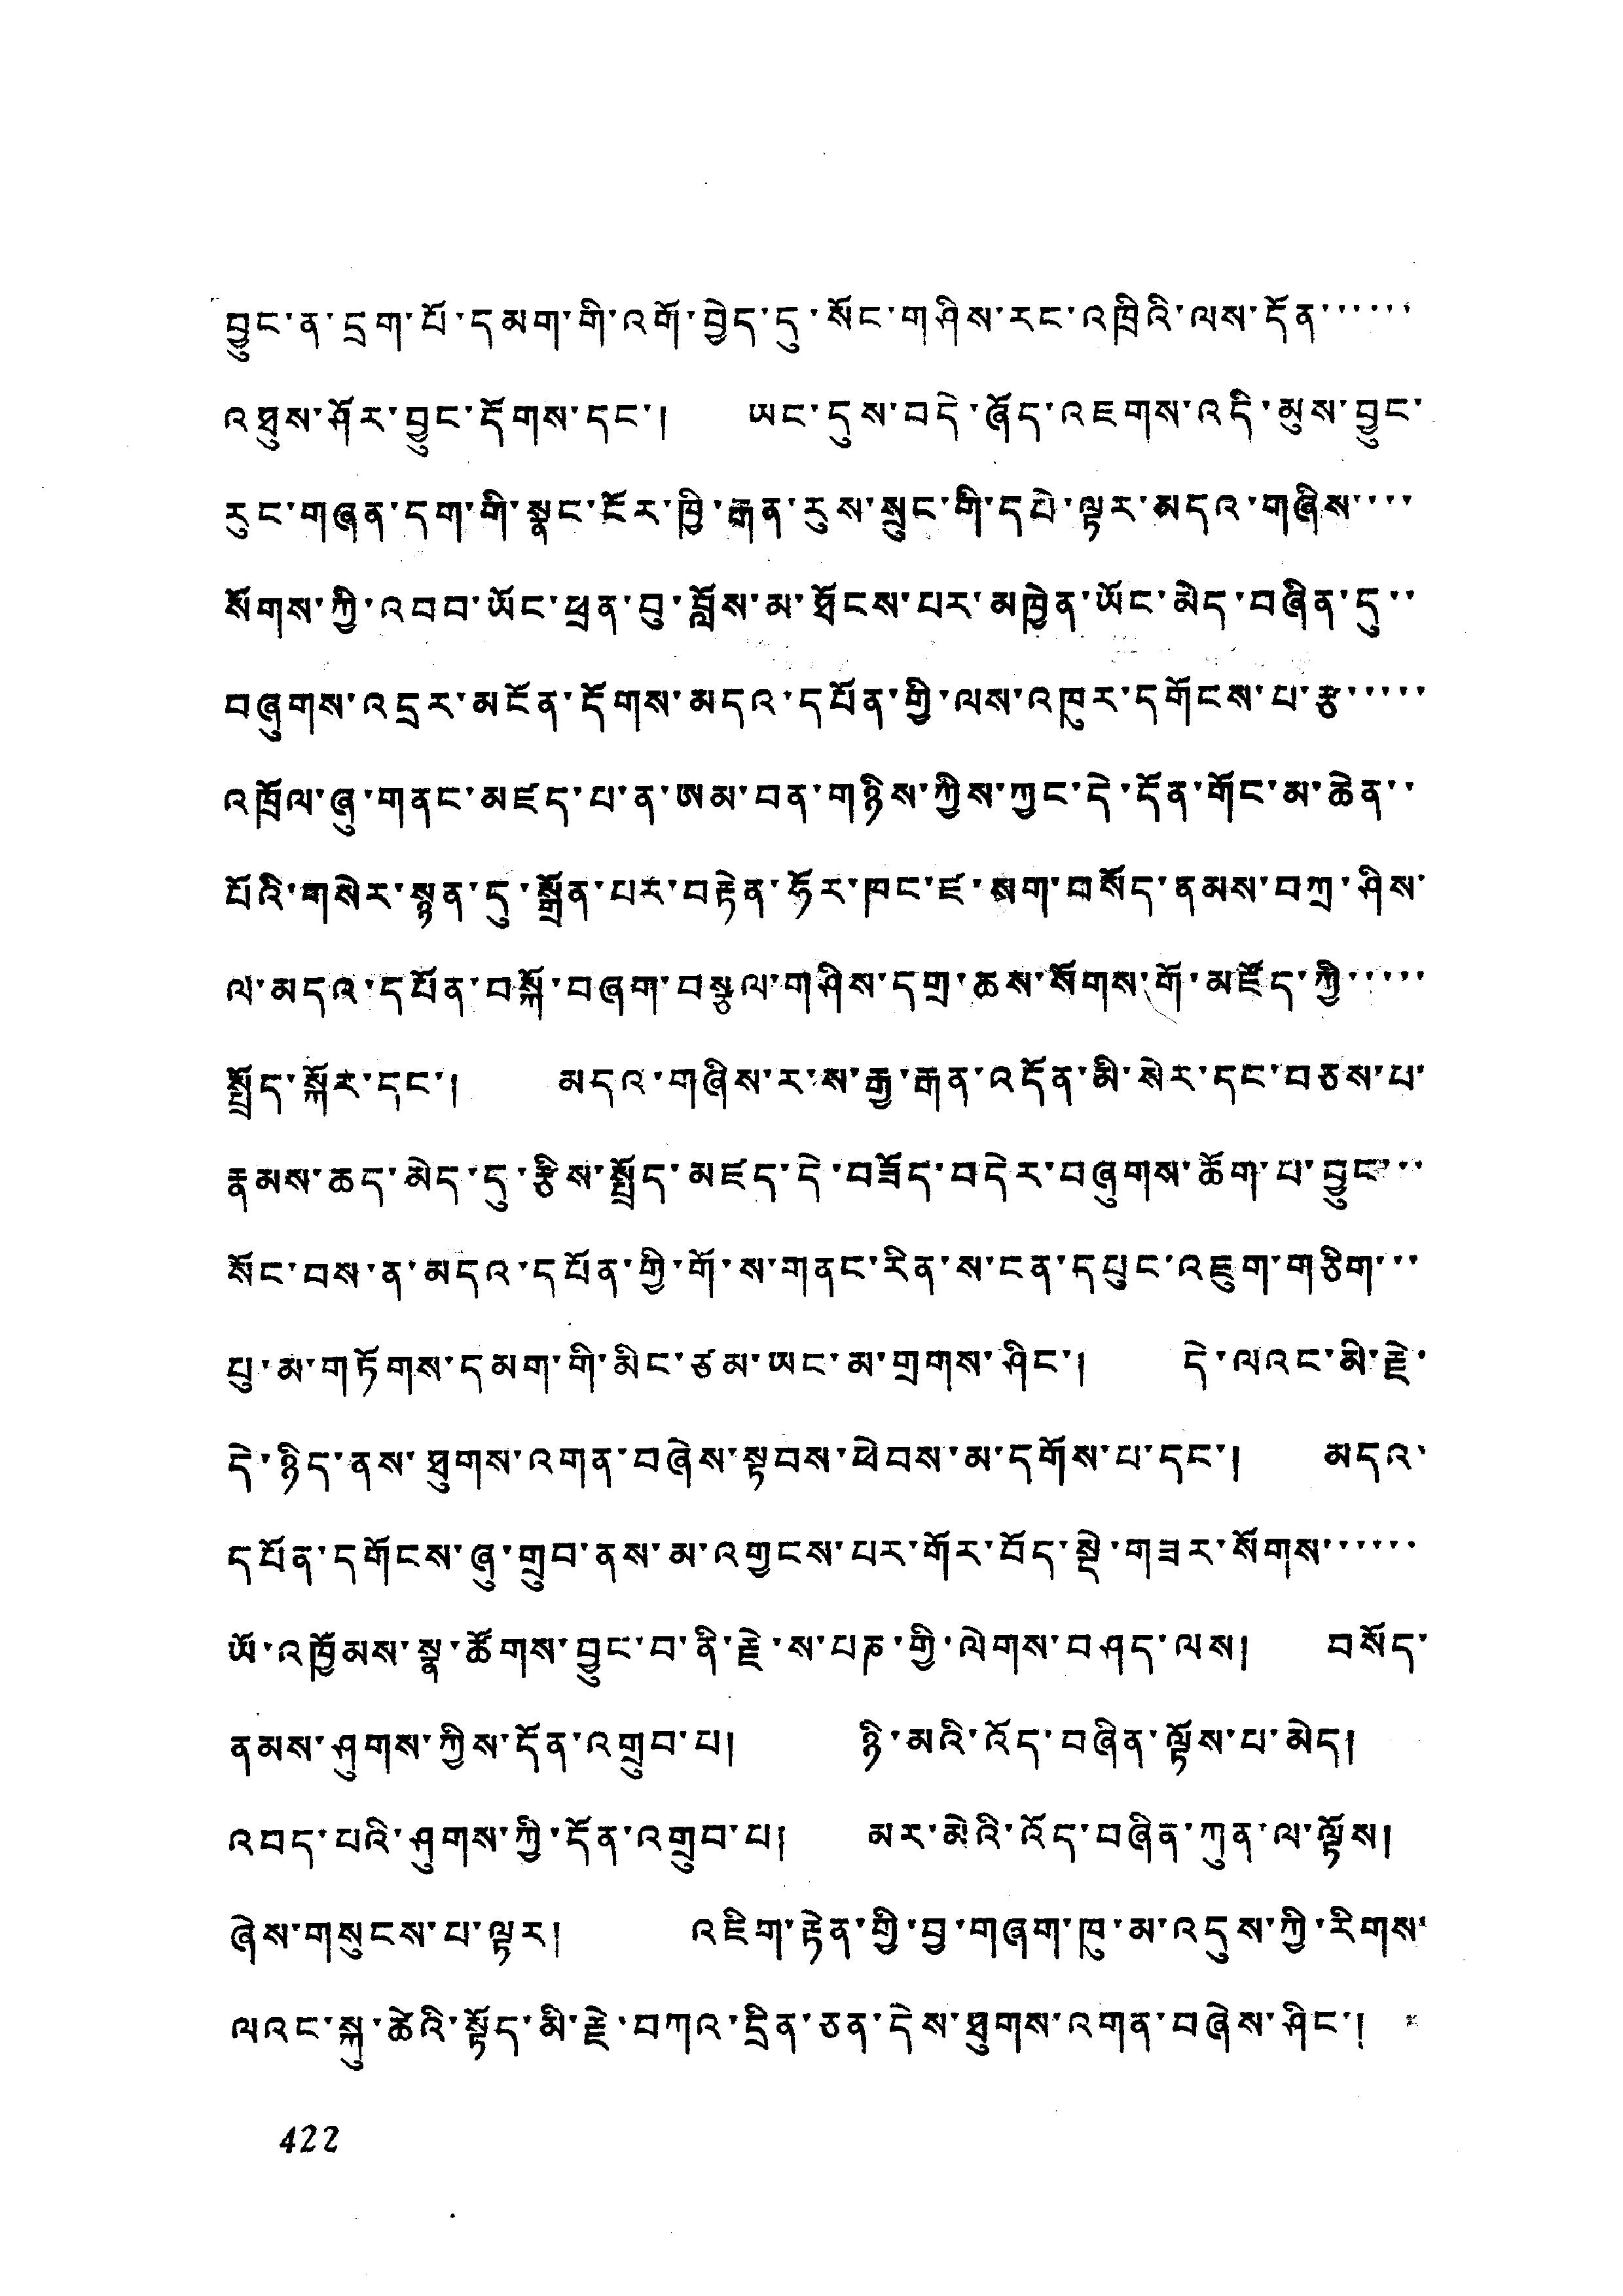བྱུང་ན་དྲག་པོ་དམག་གི་འགོ་བྱེད་དུ་སོང་གཤིས་རང་འཁྲིའི་ལས་དོན་་་་་་
འཐུས་ཤོར་བྱུང་དོགས་དང་། ཡང་དུས་བདེ་ཞོད་འཇགས་འདི་མུས་བྱུང་
རུང་གཞན་དག་གི་སྣང་ངོར་ཁྱི་རྒན་རུས་སྲུང་གི་དཔེ་ལྟར་མདའ་གཞིས་་་་
སོགས་ཀྱི་འབབ་ཡོང་ཕྲན་བུ་བློས་མ་ཐོངས་པར་མཁྱེན་ཡོང་མེད་བཞིན་དུ་་
བཞུགས་འདྲར་མངོན་དོགས་མདའ་དཔོན་གྱི་ལས་འཁུར་དགོངས་པ་རྩ་་་་་
འཁྲོལ་ཞུ་གནང་མཛད་པ་ན་ཨམ་བན་གཉིས་ཀྱིས་ཀྱང་དེ་དོན་གོང་མ་ཆེན་་
པོའི་གསེར་སྙན་དུ་སྒྲོན་པར་བརྟེན་ཧོར་ཁང་ཛ་སག་བསོད་ནམས་བཀྲ་ཤིས་
ལ་མདའ་དཔོན་བསྐོ་བཞག་བསྩལ་གཤིས་དགྲ་ཆས་སོགས་གོ་མཛོད་ཀྱི་་་་་
སྤྲོད་སྐོར་དང་། མདའ་གཞིས་ར་ས་རྒྱ་རྒན་འདོན་མི་སེར་དང་བཅས་པ་
རྣམས་ཆད་མེད་དུ་རྩིས་སྤྲོད་མཛད་དེ་བཟོད་བདེར་བཞུགས་ཆོག་པ་བྱུང་་་
སོང་བས་ན་མདའ་དཔོན་གྱི་གོ་ས་གནང་རིན་ས་ངན་དཔུང་འཇུག་གཅིག་་་
པུ་མ་གཏོགས་དམག་གི་མིང་ཙམ་ཡང་མ་གྲགས་ཤིང་། དེ་ལའང་མི་རྗེ་
དེ་ཉིད་ནས་ཐུགས་འགན་བཞེས་སྟབས་ཕེབས་མ་དགོས་པ་དང་། མདའ་
དཔོན་དགོངས་ཞུ་གྲུབ་ནས་མ་འགྱངས་པར་གོར་བོད་སྡེ་གཟར་སོགས་་་་་་
ཡོ་འཁྱོམས་སྣ་ཚོགས་བྱུང་བ་ནི་རྗེ་ས་པཎ་གྱི་ལེགས་བཤད་ལས། བསོད་
ནམས་ཤུགས་ཀྱིས་དོན་འགྲུབ་པ། ཉི་མའི་འོད་བཞིན་ལྟོས་པ་མེད།
འབད་པའི་ཤུགས་ཀྱིས་དོན་འགྲུབ་པ། མར་མེའི་འོད་བཞིན་ཀུན་ལ་ལྟོས།
ཞེས་གསུངས་པ་ལྟར། འཇིག་རྟེན་གྱི་བྱ་གཞག་ཁུ་མ་འདུས་ཀྱི་རིགས་
ལའང་སྐུ་ཚེའི་སྟོད་མི་རྗེ་བཀའ་དྲིན་ཅན་དེས་ཐུགས་འགན་བཞེས་ཤིང་།
422
